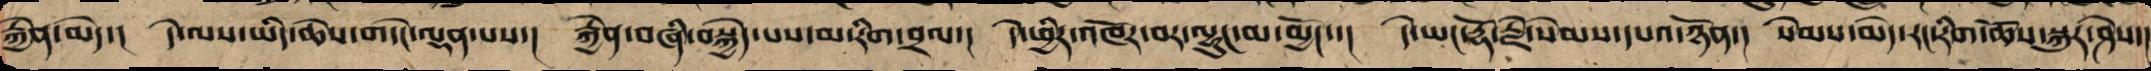རྐྱེན་མེད་། དེ་ལས་ཡིད་ཆེས་གདེང་ལྡན་པས་། རྐྱེན་བཞི་བསྐྱེད་པས་མ་རིག་བྲལ་། དེ་ཕྱིར་འཁོར་བར་ལྷུང་མ་མྱོང་་། དེ་ཡང་རྡོ་རྗེ་སེམས་དཔའ་ཉོན་། སེམས་མེད་རང་རིག་ཆོས་སྐུར་ཤེས་།
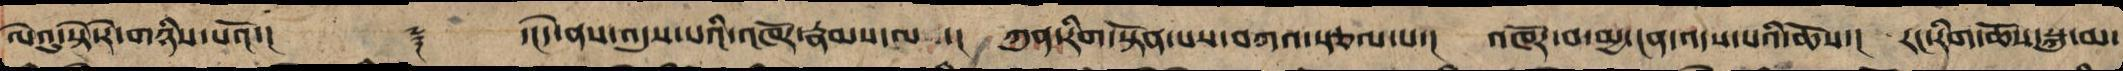ལེའུ་སྟེ་རེ་གཉིས་པའོ།་། ༈ ་།།དེ་ནས་འདུས་པའི་འཁོར་རྣམས་ལ་། ཀུན་རིག་སྟོན་པས་བཀའ་སྩལ་པ་། འཁོར་བ་མྱ་ངན་འདས་པའི་ཆོས་། རང་རིག་ཆོས་སྐུ་མ་
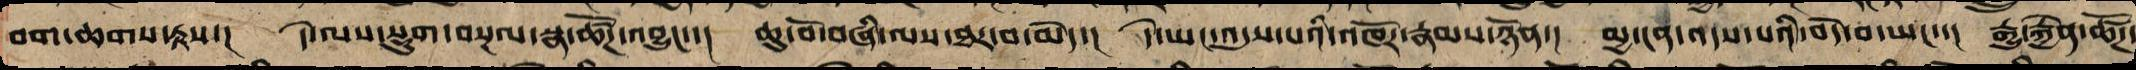བག་ཆགས་རྟས་། དེ་ལས་སྡུག་བསྔལ་སྣ་ཚོཌ་བྱུང་་། ཆུ་བོ་བཞི་ལས་ཐར་བ་མེད་། དེ་ཡང་འདུས་པའི་འཁོར་རྣམས་ཉོན་། མྱ་ངན་འདས་པའི་བདེ་བ་ཡང་་། རྒྱུ་རྐྱེན་ཚོཌ་
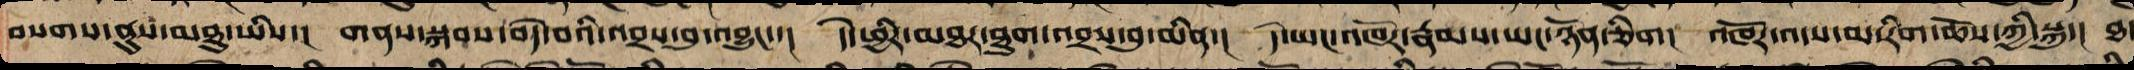བསགས་ནུས་མཐུ་ཡིས་། གནས་སྐབས་བདེ་བའི་འབྲས་བུ་འབྱུང་་། དེ་ཕྱིར་མཐར་ཐུག་འབྲས་བུ་མིན་། དེ་ཡང་འཁོར་རྣམས་ཡང་ཉོན་ཅིག། འཁོར་འདས་མ་རིག་ཆོས་ཀྱི་སྐུ་། ཐ་
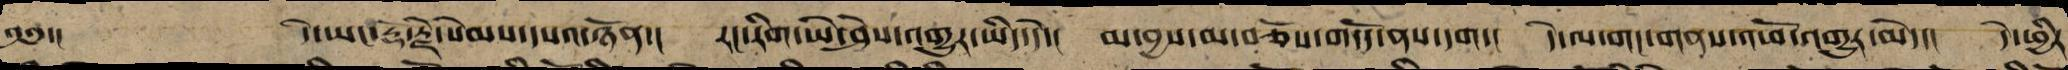༄༅་།  དེ་ཡང་རྡོ་རྗེ་སེམས་དཔའ་ཉོན་། རང་རིག་ཡེ་ཤེས་འགྱུར་ཡིད་དེ་། མ་བྱས་མ་བཅོས་གདོད་ནས་དག། དེ་ལ་གང་གནས་འཕོ་འགྱུར་མེད་། དེ་ཕྱིར
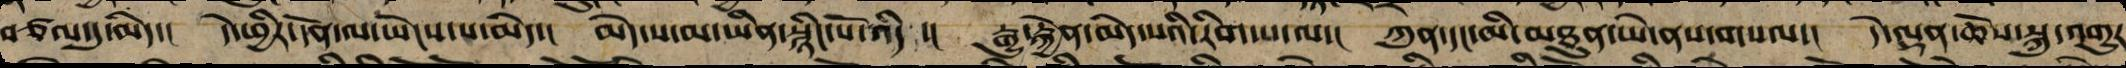བཙལ་དུ་མེད་། དེ་ཕྱིར་དོན་ལ་ཡེངས་པ་མེད་། མེད་པ་མ་ཡིན་སྙིང་པོ་འདི་། རྒྱུ་རྐྱེན་མེད་པའི་རིག་པ་ལ་། ཀུན་དང་མི་མཐུན་ཡེ་ནས་གསལ་། དེ་ལྡན་ཆོས་སྐུ་འགྱུར
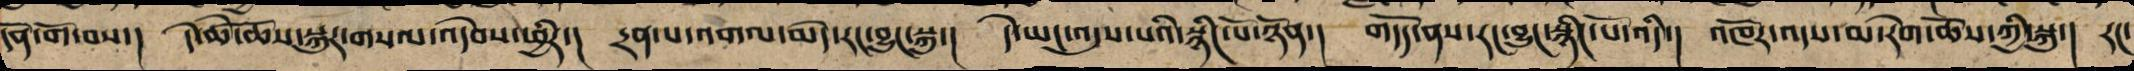དོན་གོ་བས་། དེ་ཚེ་ཆོས་སྐུར་གསལ་འདེབས་ཕྱིར་། དྲན་པ་འགལ་མེད་རང་བྱུང་སྐུ་། དེ་ཡང་འདུས་པའི་སྙིང་པོ་ཉོན་། གདོད་ནས་རང་བྱུང་སྙིང་པོ་འདི་། འཁོར་འདས་མ་རེག་ཆོས་ཀྱི་སྐུ་། རང་
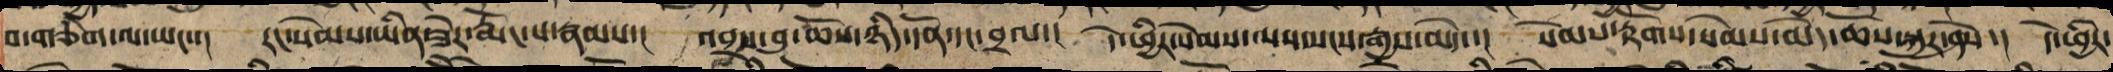བ་གཅིག་ལ་ཡང་་། རང་སེམས་ཡིན་ཟེར་རྨོངས་པ་རྣམས་། འབྲས་བུ་ཆོས་ཉིད་དོན་དང་བྲལ་། དེ་ཕྱིར་སེམས་ལ་སངས་རྒྱས་མེད་། སེམས་རྟོགས་སེམས་མེད་ཆོས་སྐུར་ཤེས་། དེ་ཕྱིར་
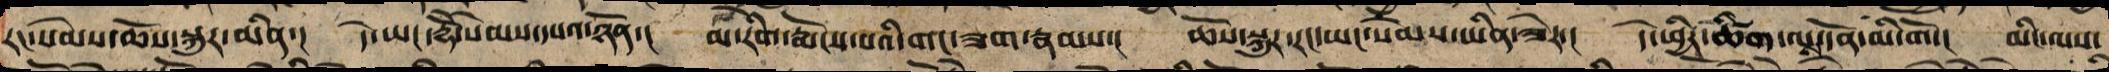རང་སེམས་ཆོས་སྐུ་མིན་། དེ་ཡང་རྡོཻ་སེམས་དཔའ་ཉོན་། མ་རིག་རྨོངས་པའི་གང་ཟག་རྣམས་། ཆོས་སྐུར་རང་ཡང་སེམས་ཡིན་ཟེར་། དེ་ཕྱིར་ཚིག་ལས་དོན་མི་གོ། མིང་ལས་
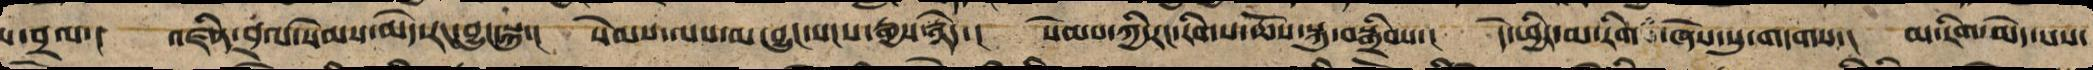པ་བྲལ་། འཛིན་བྲལ་སེམས་མེད་རང་བྱུང་སྐུ་། སེམས་ལས་མ་བྱུང་སངས་རྒྱས་རྙེད་། སེམས་ཀྱིས་རང་རིག་ཆོས་སྐུ་བསྒྲིབས་། དེ་ཕྱིར་མ་རིག་ཞེས་སུ་གདགས་། མ་རིག་མེད་པས་
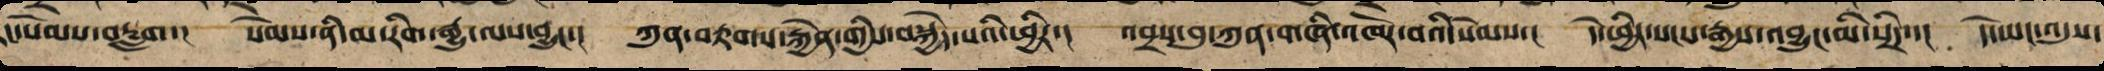རང་སེམས་བརླག་། སེམས་ནི་མ་རིག་རྒྱུ་ལས་བྱུང་། ཀུན་བརྟགས་རྐྱེན་གྱིས་བསྐྱེད་པའི་ཕྱིར་། འབྲས་བུ་ཀུན་གཞི་འཁོར་བའི་སེམས་། དེ་ཕྱིར་སངས་རྒྱས་འབྱུང་མི་སྲིད་། དེ་ཡང་འདུས་
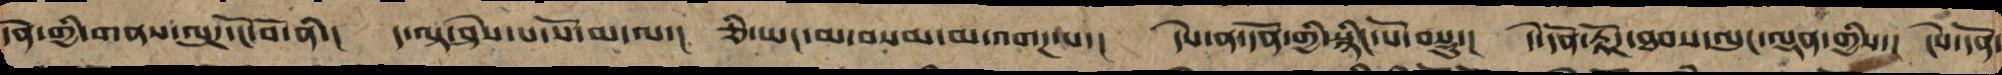དོན་གྱི་གནས་ལུགས་ངོ་བོ་ནི་། ད་ལྟ་ཤེས་པ་སོ་མ་ལ་། ཅི་ཡང་མ་བསམ་མ་འགཌ་པ་། དེ་ནི་དོན་གྱི་སྙིང་པོ་བསྡུ་། དེ་དོན་རྟོཌ་ཐབས་ལུང་ལྡན་གྱིས་། ངེས་དོན་
